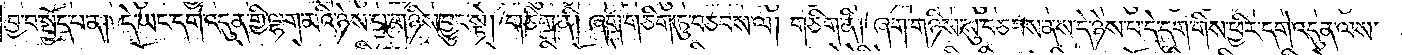བྱ་བ་སྤྱོད་པ་ན། དེ་ཡང་དགེ་འདུན་གྱི་ལྷག་མའི་ཉེས་པ་གཉིས་བྱུང་སྟེ། གཅིག་ནི། ཞག་གཅིག་ཏུ་བཅབས་ལ། གཅིག་ནི། ཞག་གཉིས་སུ་བཅབས་ནས་དེ་ཉེས་པ་དེ་དག་གིས་ཕྱིར་དགེ་འདུན་ལས་
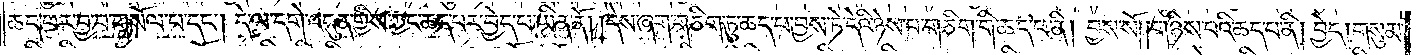ཆད་པར་བྱ་བ་གསོལ་པ་དང༌། དེ་ལ་དགེ་འདུན་གྱིས་ཀྱང་ཆད་པར་བྱེད་པ་ཡིན་ནོ། །དེས་ཞག་གཅིག་ཏུ་ཆད་པ་བྱས་ཏེ་དེའི་ཉེས་པ་གཅིག་གི་ཆད་པ་ནི། བྱས་སོ། །གཉིས་པའི་ཆད་པ་ནི། བྱེད། གསུམ་
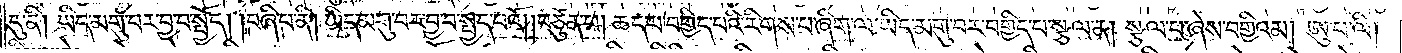དུ་ནི། ཡིད་མགུ་བར་བྱ་བ་སྤྱོད། །བཞི་པ་ནི། ཡིད་མགུ་བར་བྱ་བ་སྤྱད་པའོ། །བཙུན་པ། ཆད་པ་བགྱིད་པའི་རིགས་པ་ཞིག་ལ་ཡིད་མགུ་བར་བགྱིད་པ་སྩལ་ན། སྩལ་པ་ཞེས་བགྱིའམ། ཨུ་པ་ལི།
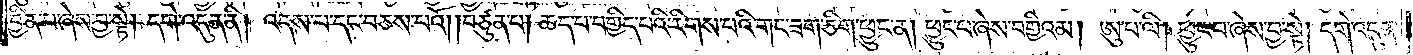བྱིན་པ་ཞེས་བྱ་སྟེ། དགེ་འདུན་ནི། འདས་པ་དང་བཅས་པའོ། །བཙུན་པ། ཆད་པ་བགྱིད་པའི་རིགས་པའི་གང་ཟག་ཅིག་ཕྱུང་ན། ཕྱུང་པ་ཞེས་བགྱིའམ། ཨུ་པ་ལི། ཕྱུང་བ་ཞེས་བྱ་སྟེ། དགེ་འདུན་
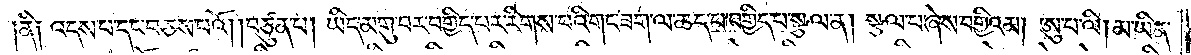ནི༑ འདས་པ་དང་བཅས་པའོ། །བཙུན་པ། ཡིད་མགུ་བར་བགྱིད་པར་རིགས་པའི་གང་ཟག་ལ་ཆད་པ་བགྱིད་པ་སྩལ་ན། སྩལ་པ་ཞེས་བགྱིའམ། ཨུ་པ་ལི། མ་ཡིན་
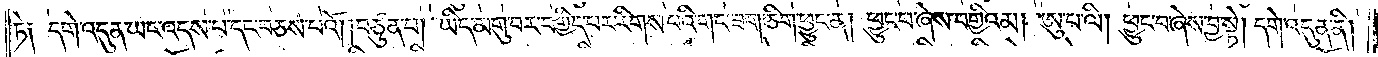ཏེ༑ དགེ་འདུན་ཡང་འདས་པ་དང་བཅས་པའོ། །བཙུན་པ། ཡིད་མགུ་བར་བགྱིད་པར་རིགས་པའི་གང་ཟག་ཅིག་ཕྱུང་ན། ཕྱུང་བ་ཞེས་བགྱིའམ། ཨུ་པ་ལི། ཕྱུང་བ་ཞེས་བྱ་སྟེ། དགེ་འདུན་ནི།
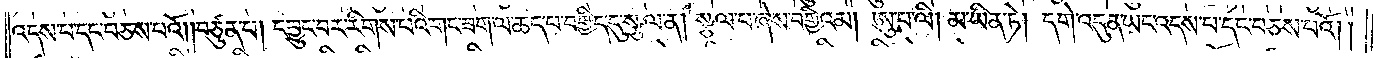འདས་པ་དང་བཅས་པའོ། །བཙུན་པ། དབྱུང་བར་རིགས་པའི་གང་ཟག་ལ་ཆད་པ་བགྱིད་དུ་སྩལ་ན། སྩལ་པ་ཞེས་བགྱིའམ། ཨུ་པ་ལི། མ་ཡིན་ཏེ། དགེ་འདུན་ཡང་འདས་པ་དང་བཅས་པའོ། །
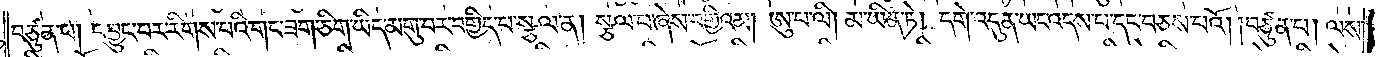བཙུན་པ། དབྱུང་བར་རིགས་པའི་གང་ཟག་ཅིག་ཡིད་མགུ་བར་བགྱིད་པ་སྩལ་ན། སྩལ་པ་ཞེས་བགྱིའམ། ཨུ་པ་ལི། མ་ཡིན་ཏེ། དགེ་འདུན་ཡང་འདས་པ་དང་བཅས་པའོ། །བཙུན་པ། ལས་
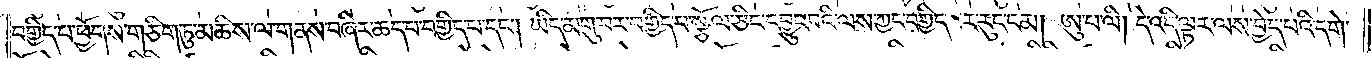བགྱིད་པ་ཕྱོགས་གཅིག་ཏུ་མཆིས་ལ་གནས་བཞིར་ཆད་པ་བགྱིད་པ་དང༌། ཡིད་མགུ་བར་བགྱིད་པ་སྩོལ་ཅིང་དབྱུང་བའི་ལས་ཀྱང་བགྱིད་པར་རུང་ངམ། ཨུ་པ་ལི། དེ་འདི་ལྟར་ལས་བྱེད་པའི་དགེ་
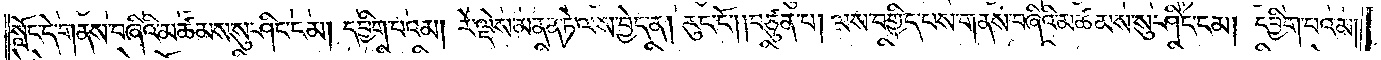སློང་དེ་གནས་བཞིའི་མཚམས་སུ་ཤིང་ངམ། དབྱིག་པའམ། རེ་ལྡེས་མནན་ཏེ་ལས་བྱེད་ན། རུང་ངོ༌། །བཙུན་པ། ལས་བགྱིད་པས་གནས་བཞིའི་མཚམས་སུ་ཤིང་ངམ། དབྱིག་པའམ།
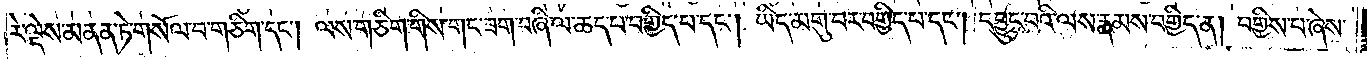རེ་ལྡེས་མནན་ཏེ་གསོལ་བ་གཅིག་དང༌། ལས་གཅིག་གིས་གང་ཟག་བཞི་ལ་ཆད་པ་བགྱིད་པ་དང༌། ཡིད་མགུ་བར་བགྱིད་པ་དང༌། དབྱུང་བའི་ལས་རྣམས་བགྱིད་ན། བགྱིས་པ་ཞེས་
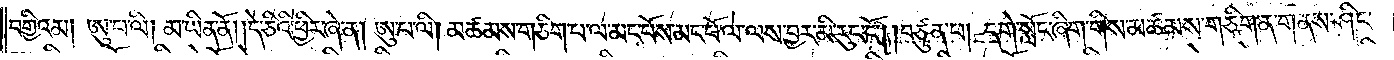བགྱིའམ། ཨུ་པ་ལི། མ་ཡིན་ནོ། །དེ་ཅིའི་ཕྱིར་ཞེ་ན། ཨུ་པ་ལི། མཚམས་གཅིག་པ་ལ་མང་པོས་མང་པོ་ལ་ལས་བྱར་མི་རུང་ངོ༌། །བཙུན་པ། དགེ་སློང་ཞིག་གིས་མཚམས་གཅིག་ན་གནས་ཤིང་
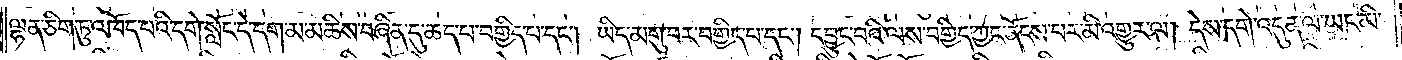ལྷན་ཅིག་ཏུ་འཁོད་པའི་དགེ་སློང་དེ་དག་མ་མཆིས་བཞིན་དུ་ཆད་པ་བགྱིད་པ་དང༌། ཡིད་མགུ་བར་བགྱིད་པ་དང༌། དབྱུང་བའི་ལས་བགྱིད་ཀྱང་ནོངས་པར་མི་འགྱུར་ལ། དེས་དགེ་འདུན་ལ་ཡང་མི་
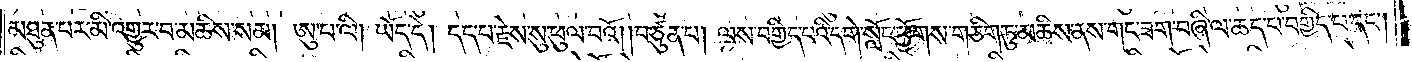མཐུན་པར་མི་འགྱུར་བ་མཆིས་སམ། ཨུ་པ་ལི། ཡོད་དེ། དད་པ་རྗེས་སུ་ཕུལ་བའོ། །བཙུན་པ། ལས་བགྱིད་པའི་དགེ་སློང་ཕྱོགས་གཅིག་ཏུ་མཆིས་ནས་གང་ཟག་བཞི་ལ་ཆད་པ་བགྱིད་པ་དང༌།
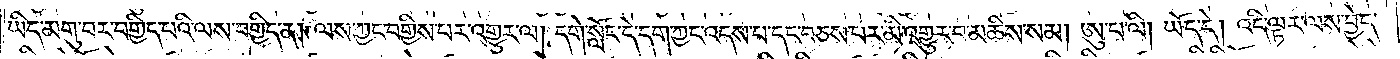ཡིད་མགུ་བར་བགྱིད་པའི་ལས་བགྱིད་ན། ལས་ཀྱང་བགྱིས་པར་འགྱུར་ལ། དགེ་སློང་དེ་དག་ཀྱང་འདས་པ་དང་བཅས་པར་མི་འགྱུར་བ་མཆིས་སམ། ཨུ་པ་ལི། ཡོད་དེ། འདི་ལྟར་ལས་བྱེད་
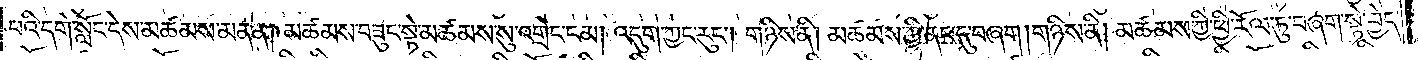པའི་དགེ་སློང་དེས་མཚམས་མནན། མཚམས་བཟུང་སྟེ་མཚམས་སུ་འགྲེང་ངམ། འདུག་ཀྱང་རུང༌། གཉིས་ནི། མཚམས་ཀྱི་ནང་དུ་བཞག །གཉིས་ནི། མཚམས་ཀྱི་ཕྱི་རོལ་ཏུ་བཞག་སྟེ་བྱེད་
